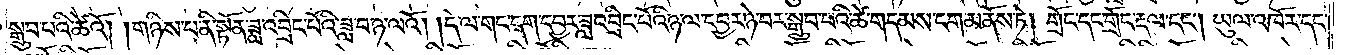སྒྲུབ་པའི་ཚེའོ། །གཉིས་པ་ནི་སྟོན་ཟླ་འབྲིང་པོའི་ཟླ་བ་ཉ་ལའོ། །དེ་ལ་གང་དག་དབྱར་ཟླ་འབྲིང་པོའི་ཉ་ལ་དབྱར་ཉེ་བར་སྒྲུབ་པའི་ཚེ་གདམས་ངག་མནོས་ཏེ། གྲོང་དང་གྲོང་རྡལ་དང༌། ཡུལ་འཁོར་དང་
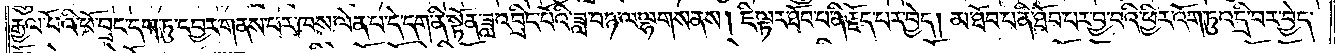རྒྱལ་པོའི་ཕོ་བྲང་དག་ཏུ་དབྱར་གནས་པར་ཁས་ལེན་པ་དེ་དག་ནི་སྟོན་ཟླ་འབྲིང་པོའི་ཟླ་བ་ཉ་ལ་ལྷགས་ནས། ཇི་ལྟར་ཐོབ་པ་ནི་རྗོད་པར་བྱེད། མ་ཐོབ་པ་ནི་ཐོབ་པར་བྱ་བའི་ཕྱིར་འོག་ཏུ་འདྲི་བར་བྱེད་
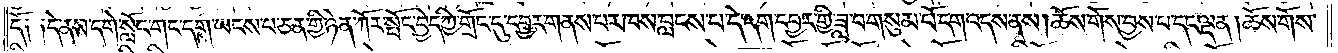དོ༑ ༑དེ་ནས་དགེ་སློང་གང་དག་ཡངས་པ་ཅན་གྱི་ཉེན་ཀོར་སྤོང་བྱེད་ཀྱི་གྲོང་དུ་དབྱར་གནས་པར་ཁས་བླངས་པ་དེ་དག་དབྱར་གྱི་ཟླ་བ་གསུམ་པོ་དག་འདས་ནས། ཆོས་གོས་བྱས་པ་དང་ལྡན། ཆོས་གོས་
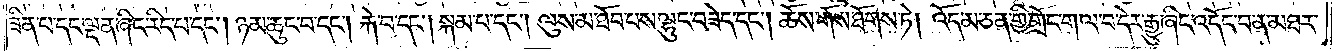ཟིན་པ་དང་ལྡན་ཞིང་རིད་པ་དང༌། ཉམ་ཆུང་བ་དང༌། རྐེ་བ་དང༌། སྐམ་པ་དང༌། ལུས་མ་ཐོབ་པས་ལྷུང་བཟེད་དང༌། ཆོས་གོས་ཐོགས་ཏེ། འོད་མ་ཅན་གྱི་གྲོང་ག་ལ་བ་དེར་རྒྱུ་ཞིང་འདོང་བ་ན་མཐར་
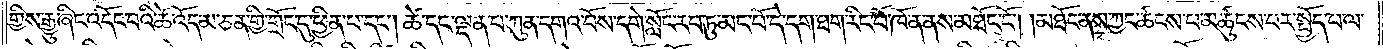གྱིས་རྒྱུ་ཞིང་འདོང་བའི་ཚེ་འོད་མ་ཅན་གྱི་གྲོང་དུ་ཕྱིན་པ་དང༌། ཚེ་དང་ལྡན་པ་ཀུན་དགའ་བོས་དགེ་སློང་རབ་ཏུ་མང་པོ་དེ་དག་ཐག་རིང་པོ་ཁོ་ན་ནས་མཐོང་ངོ༌། །མཐོང་ནས་ཀྱང་ཚངས་པ་མཚུངས་པར་སྤྱོད་པ་ལ་
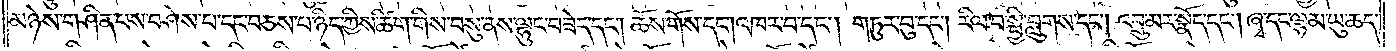མཉེས་གཤིན་པས་བཤེས་པ་དང་བཅས་པ་ཉིད་ཀྱིས་ཚིག་གིས་བསུ་ནས་ལྷུང་བཟེད་དང༌། ཆོས་གོས་དང༌། འཁར་བ་དང༌། གཏུར་བུ་དང༌། རིལ་བ་སྤྱི་བླུགས་དང༌། འབྲུ་མར་སྣོད་དང༌། ཞྭ་དང་ལྷམ་ཡུ་ཆད་
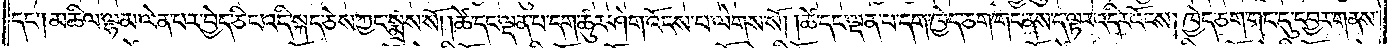དང༌། མཆིལ་ལྷམ་ལེན་པར་བྱེད་ཅིང་འདི་སྐད་ཅེས་ཀྱང་སྨྲས་སོ། །ཚེ་དང་ལྡན་པ་དག་ཚུར་ཤེག་འོངས་པ་ལེགས་སོ། །ཚེ་དང་ལྡན་པ་དག་ཁྱེད་ཅག་གང་ནས་ད་ལྟར་འདིར་འོངས། ཁྱེད་ཅག་གང་དུ་དབྱར་གནས་
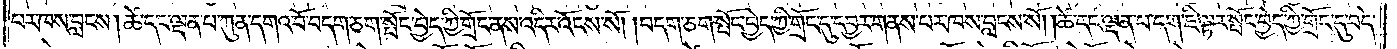པར་ཁས་བླངས། ཚེ་དང་ལྡན་པ་ཀུན་དགའ་བོ་བདག་ཅག་སྤོང་བྱེད་ཀྱི་གྲོང་ནས་འདིར་འོངས་སོ། །བདག་ཅག་སྤོང་བྱེད་ཀྱི་གྲོང་དུ་དབྱར་གནས་པར་ཁས་བླངས་སོ། །ཚེ་དང་ལྡན་པ་དག་ཇི་ལྟར་སྤོང་བྱེད་ཀྱི་གྲོང་དུ་བདེ་
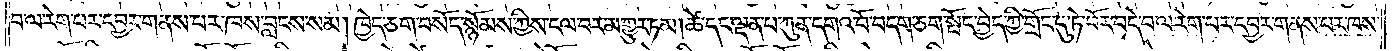བ་ལ་རེག་པར་དབྱར་གནས་པར་ཁས་བླངས་སམ། ཁྱེད་ཅག་བསོད་སྙོམས་ཀྱིས་ངལ་བར་མ་གྱུར་ཏམ། ཚེ་དང་ལྡན་པ་ཀུན་དགའ་བོ་བདག་ཅག་སྤོང་བྱེད་ཀྱི་གྲོང་དུ་ཏེ་བོར་བདེ་བ་ལ་རེག་པར་དབྱར་གནས་པར་ཁས་
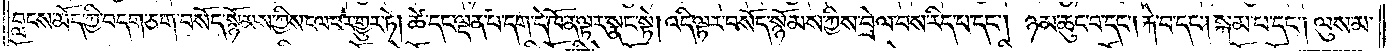བླངས་མོད་ཀྱི་བདག་ཅག་བསོད་སྙོམས་ཀྱིས་ངལ་བར་གྱུར་ཏེ། ཚེ་དང་ལྡན་པ་དག་དེ་ཁོ་ན་ལྟར་སྣང་སྟེ། འདི་ལྟར་བསོད་སྙོམས་ཀྱིས་བྲེལ་བས་རིད་པ་དང༌། ཉམ་ཆུང་བ་དང༌། རྐེ་བ་དང༌། སྐམ་པ་དང༌། ལུས་མ་
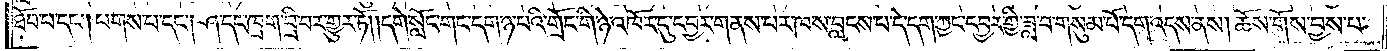ཐོབ་པ་དང༌། པགས་པ་དང༌། ཤ་དང་ཁྲག་བྲི་བར་གྱུར་ཏོ། །དགེ་སློང་གང་དག་ཉ་པའི་གྲོང་གི་ཉེ་འཁོར་དུ་དབྱར་གནས་པར་ཁས་བླངས་པ་དེ་དག་ཀྱང་དབྱར་གྱི་ཟླ་བ་གསུམ་པོ་དག་འདས་ནས། ཆོས་གོས་བྱས་པ་
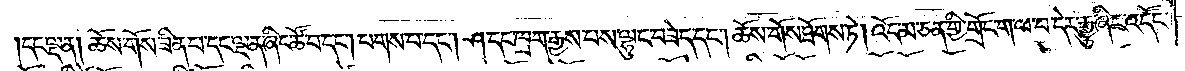དང་ལྡན། ཆོས་གོས་ཟིན་པ་དང་ལྡན་ཞིང་ཚོ་བ་དང༌། པགས་པ་དང༌། ཤ་དང་ཁྲག་རྒྱས་པས་ལྷུང་བཟེད་དང༌། ཆོས་གོས་ཐོགས་ཏེ། འོད་མ་ཅན་གྱི་གྲོང་ག་ལ་བ་དེར་རྒྱུ་ཞིང་འདོང་
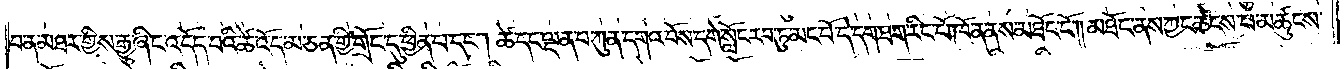བ་ན་མཐར་གྱིས་རྒྱུ་ཞིང་འདོད་བའི་ཚེ་འོད་མ་ཅན་གྱི་གྲོང་དུ་ཕྱིན་པ་དང༌། ཚེ་དང་ལྡན་པ་ཀུན་དགའ་བོས་དགེ་སློང་རབ་ཏུ་མང་པོ་དེ་དག་ཐག་རིང་པོ་ཁོ་ན་ནས་མཐོང་ངོ༌། །མཐོང་ནས་ཀྱང་ཚངས་པ་མཚུངས་
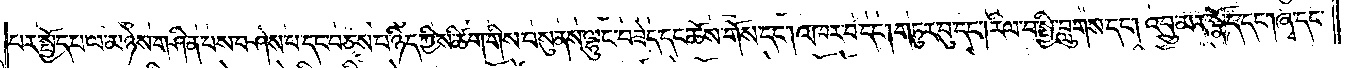པར་སྤྱོད་པ་ལ་མཉེས་གཤིན་པས་བཤེས་པ་དང་བཅས་པ་ཉིད་ཀྱིས་ཚིག་གིས་བསུ་ནས་ལྷུང་བཟེད་དང་ཆོས་གོས་དང༌། འཁར་བ་དང༌། གཏུར་བུ་དང༌། རིལ་བ་སྤྱི་བླུགས་དང༌། འབྲུ་མར་སྣོད་དང༌། ཞྭ་དང་
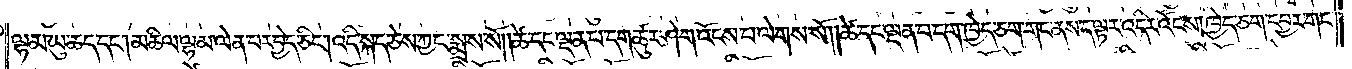ལྷམ་ཡུ་ཆད་དང༌། མཆིལ་ལྷམ་ལེན་པར་བྱེད་ཅིང༌། འདི་སྐད་ཅེས་ཀྱང་སྨྲས་སོ། །ཚེ་དང་ལྡན་པ་དག་ཚུར་ཤེག་འོངས་པ་ལེགས་སོ། །ཚེ་དང་ལྡན་པ་དག་ཁྱེད་ཅག་གང་ནས་ད་ལྟར་འདིར་འོངས། ཁྱེད་ཅག་དབྱར་གང་
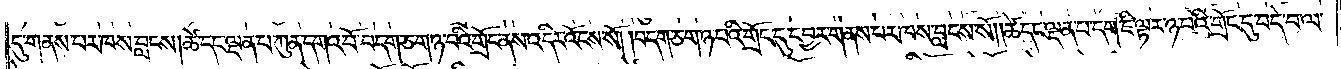དུ་གནས་པར་ཁས་བླངས། ཚེ་དང་ལྡན་པ་ཀུན་དགའ་བོ་བདག་ཅག་ཉ་པའི་གྲོང་ནས་འདིར་འོངས་སོ། །བདག་ཅག་ཉ་པའི་གྲོང་དུ་དབྱར་གནས་པར་ཁས་བླངས་སོ། །ཚེ་དང་ལྡན་པ་དག་ཇི་ལྟར་ཉ་པའི་གྲོང་དུ་བདེ་བ་ལ་
